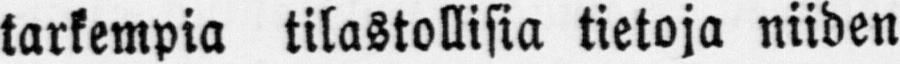tarkempia tilastollisia tietoja niiden
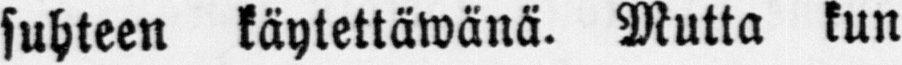suhteen käytettäwänä. Mutta kun
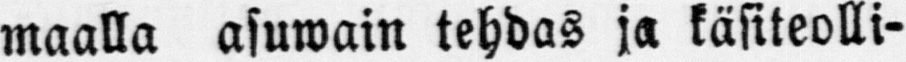maalla asuwain tehdas ja käsiteolli-
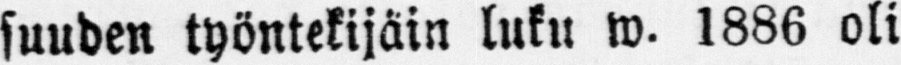suuden työntekijäin luku w. 1886 oli
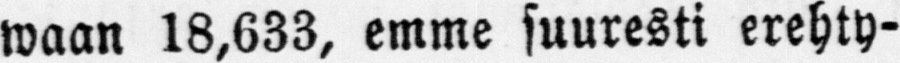waan 18,633, emme suuresti erehty-
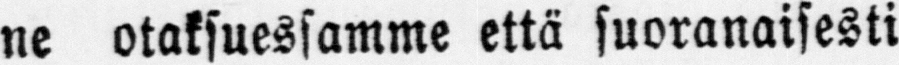ne otaksuessamme että suoranaisesti
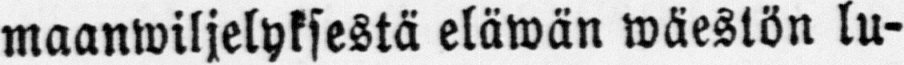maanwiljelyksestä eläwän wäestön lu-
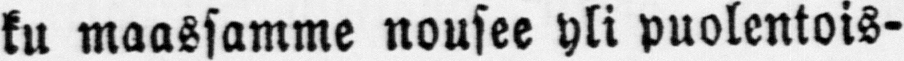ku maassamme nousee yli puolentois-
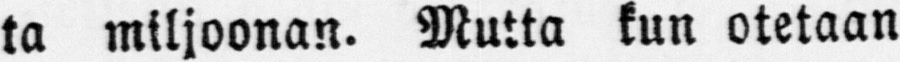ta miljoonan. Mutta kun otetaan
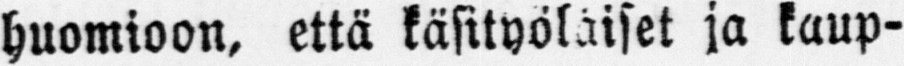huomioon, että käsityöläiset ja kaup-
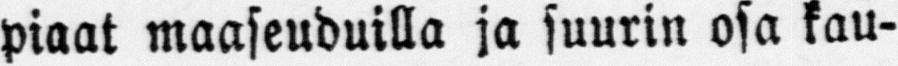piaat maaseuduilla ja suurin osa kau-
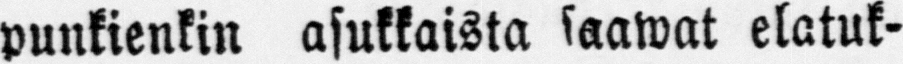punkienkin asukkaista saawat elatuk-
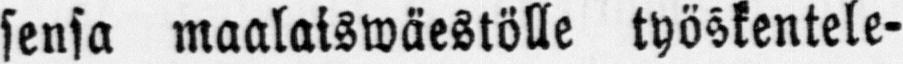sensa maalaiswäestölle työskentele-
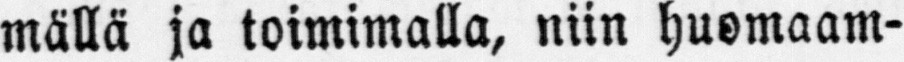mällä ja toimimalla, niin huomaam-
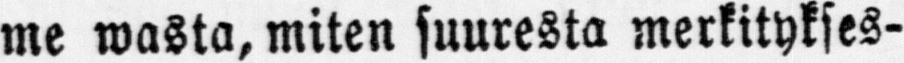me wasta, miten suuresta merkitykses-
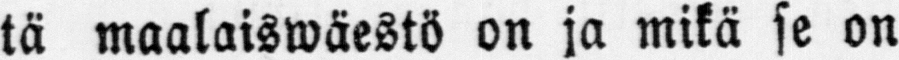tä maalaiswäestö on ja mikä se on
